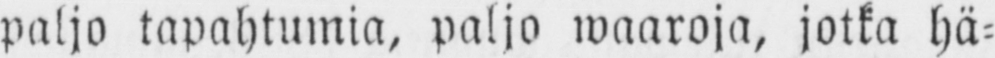paljo tapahtumia, paljo waaroja, jotka hä-
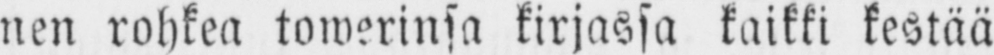nen rohkea towerinsa kirjassa kaikki kestää
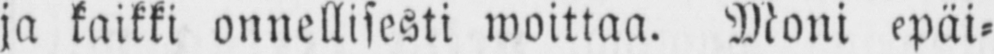ja kaikki onnellisesti woittaa. Moni epäi-
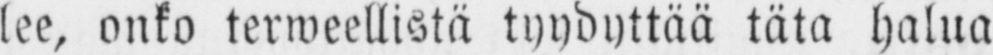lee, onko terweellistä tyydyttää tätä halua
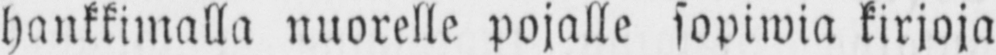hankkimalla nuorelle pojalle sopiwia kirjoja
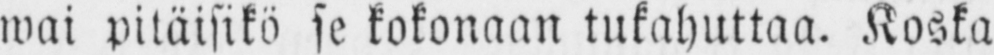wai pitäisikö se kokonaan tukahuttaa. Koska
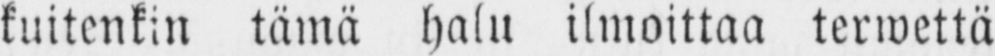kuitenkin tämä halu ilmoittaa terwettä
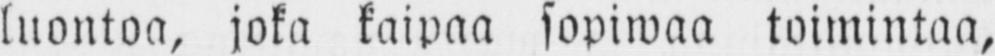luontoa, joka kaipaa sopiwaa toimintaa,
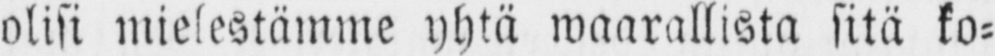olisi mielestämme yhtä waarallistä sitä ko-
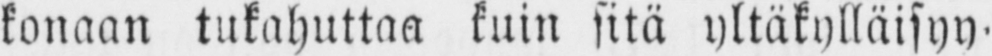konaan tukahuttaa kuin sitä yltäkylläisyy-
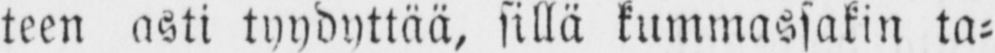teen asti tyydyttää, sillä kummassakin ta-
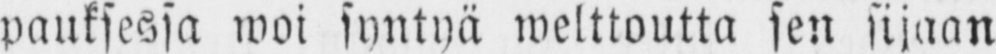pauksessa woi syntyä welttoutta sen sijaan
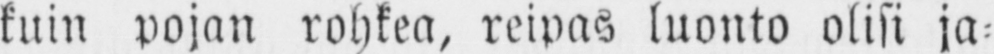kuin pojan rohkea, reipas luonto olisi ja-
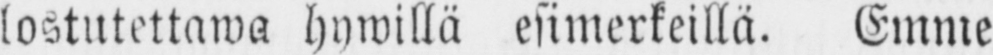lostutettawa hywillä esimerkeillä. Emme
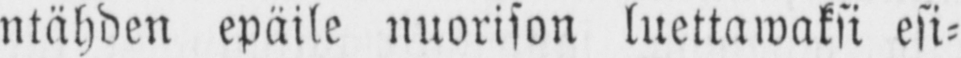sentähden epäile nuorison luettawaksi esi-
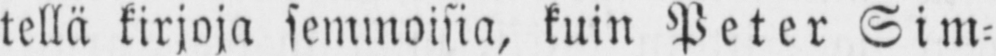tellä kirjoja semmoisia, kuin Peter Sim-
